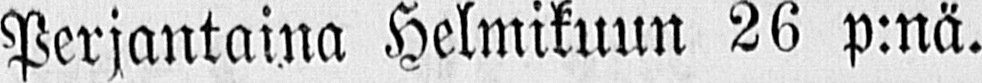Perjantaina Helmikuun 26 p:nä.
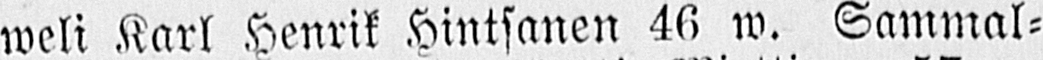weli Karl Henrik Hintsanen 46 w. Sammal-
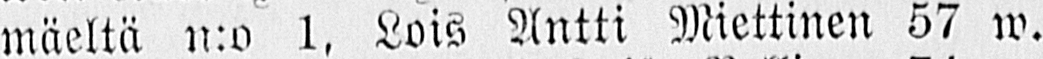mäeltä n:a 1, Lois Antti Miettinen 57 w.
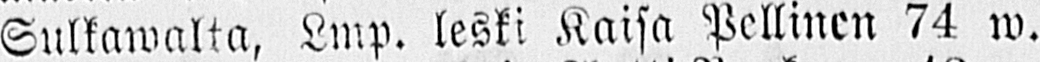Sulkawalta, Lmp. leski Kaisa Pellinen 74 w.
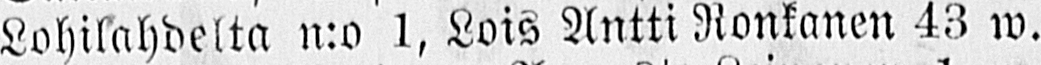Lokalahdelta n:o 1, Lois Antti Ronkanen 43 w.
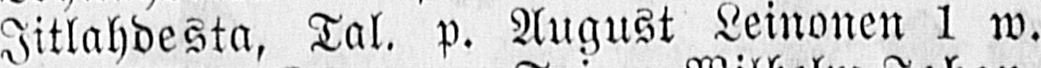Iitlahdesta, Tal. p. August Leinonen 1 w.
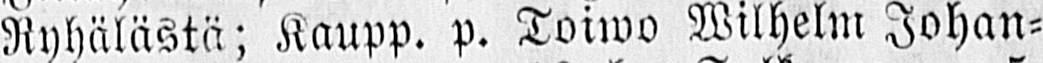Ryhälästä; Kaupp. p. Toiwo Wilhelm Johan-
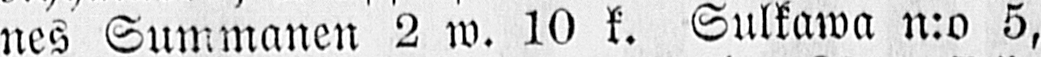nes Summanen 2 w. 10 k. Sulkawa n:o 5,
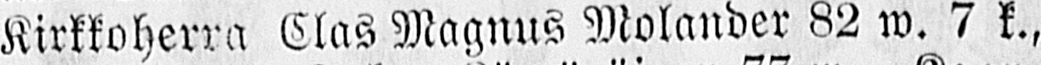Kirkkoherra Clas Magnus Molander 82 w. 7 k.,
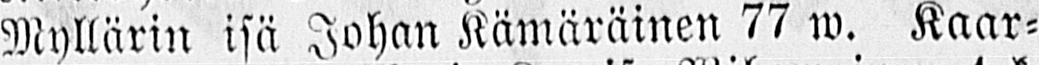Myllärin isä Johan Kämäräinen 77 w. Kaar-
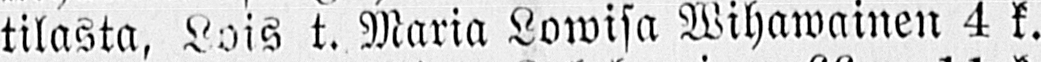tilasta. Lois t. Maria Lowisa Wihawninen 4 k.
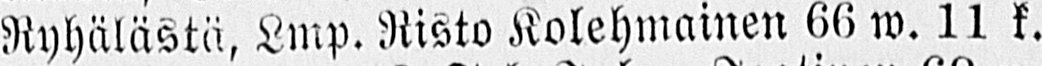Ryhälästä. Lmp. Risto Kolehmainen 66 w. 11 k.
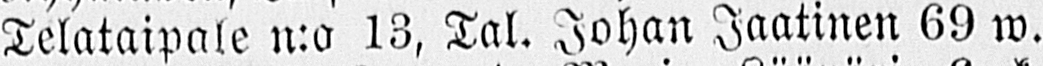Telataipale n:a 13, Tal. Johan Jaatinen 69 w.
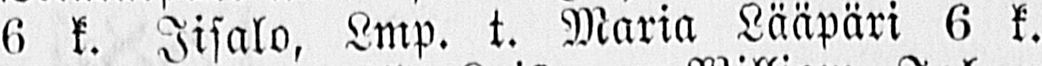6 k. Iisalo, Lmp. t. Maria Lääpäri 6 k.
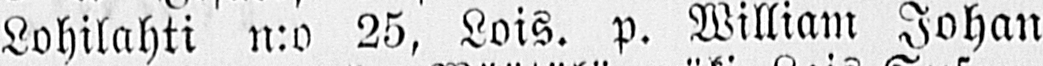Lohilahti n:o 25, Lois. p. William Johan
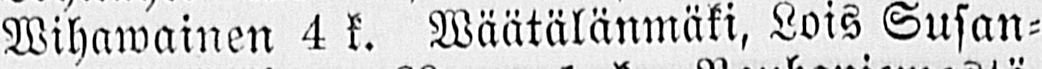Wihawainen 4 k. Wäätälänmäki, Lois Susan-
